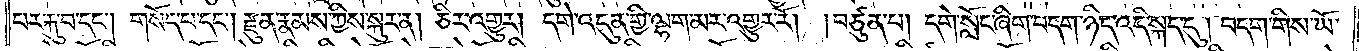པར་རྐུ་བ་དང༌། གསོད་པ་དང༌། རྫུན་རྣམས་ཀྱིས་སྐུར་ན། ཅིར་འགྱུར། དགེ་འདུན་གྱི་ལྷག་མར་འགྱུར་རོ། །བཙུན་པ། དགེ་སློང་ཞིག་བདག་ཉིད་འདི་སྐད་དུ། བདག་གིས་ཡོ་
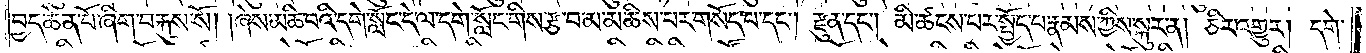བྱད་ཆེན་པོ་ཞིག་བརྐུས་སོ། །ཞེས་མཆི་བའི་དགེ་སློང་དེ་ལ་དགེ་སློང་གིས་རྩ་བ་མ་མཆིས་པར་གསོད་པ་དང༌། རྫུན་དང༌། མི་ཚངས་པར་སྤྱོད་པ་རྣམས་ཀྱིས་སྐུར་ན། ཅིར་འགྱུར། དགེ་
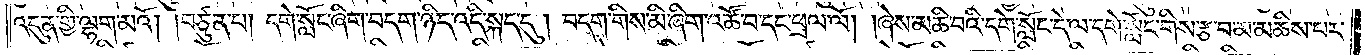འདུན་གྱི་ལྷག་མའོ། །བཙུན་པ། དགེ་སློང་ཞིག་བདག་ཉིད་འདི་སྐད་དུ། བདག་གིས་མི་ཞིག་འཚོ་བ་དང་ཕྲལ་ལོ། །ཞེས་མཆི་བའི་དགེ་སློང་དེ་ལ་དགེ་སློང་གིས་རྩ་བ་མ་མཆིས་པར་
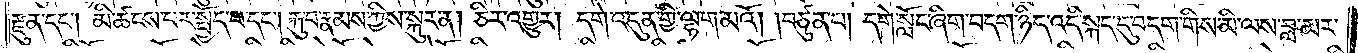རྫུན་དང༌། མི་ཚངས་པར་སྤྱོད་པ་དང༌། རྐུ་བ་རྣམས་ཀྱིས་སྐུར་ན། ཅིར་འགྱུར། དགེ་འདུན་གྱི་ལྷག་མའོ། །བཙུན་པ། དགེ་སློང་ཞིག་བདག་ཉིད་འདི་སྐད་དུ་བདག་གིས་མི་ལས་བླ་མར་
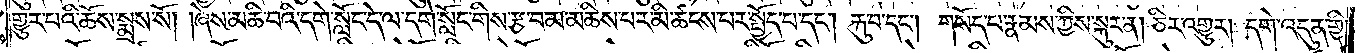གྱུར་པའི་ཆོས་སྨྲས་སོ། །ཞེས་མཆི་བའི་དགེ་སློང་དེ་ལ་དགེ་སློང་གིས་རྩ་བ་མ་མཆིས་པར་མི་ཚངས་པར་སྤྱོད་པ་དང༌། རྐུ་བ་དང༌། གསོད་པ་རྣམས་ཀྱི་སྐུར་ན། ཅིར་འགྱུར། དགེ་འདུན་གྱི་
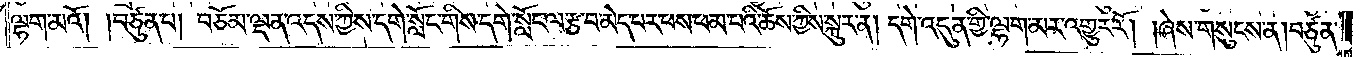ལྷག་མའོ། །བཙུན་པ། བཅོམ་ལྡན་འདས་ཀྱིས་དགེ་སློང་གིས་དགེ་སློང་ལ་རྩ་བ་མེད་པར་ཕས་ཕམ་པའི་ཆོས་ཀྱིས་སྐུར་ན། དགེ་འདུན་གྱི་ལྷག་མར་འགྱུར་རོ། །ཞེས་གསུངས་ན། བཙུན་
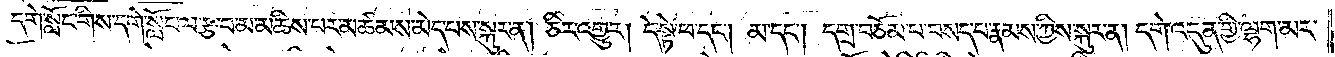པ༑ དགེ་སློང་གིས་དགེ་སློང་ལ་རྩ་བ་མ་མཆིས་པར་མཚམས་མེད་པས་སྐུར་ན། ཅིར་འགྱུར། དེ་སྟེ་ཕ་དང༌། མ་དང༌། དགྲ་བཅོམ་པ་བསད་པ་རྣམས་ཀྱིས་སྐུར་ན། དགེ་འདུན་གྱི་ལྷག་མར་
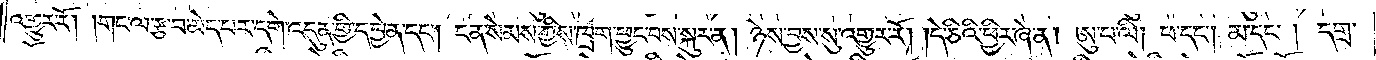འགྱུར་རོ། །གང་ལ་རྩ་བ་མེད་པར་དགེ་འདུན་གྱི་དབྱེན་དང༌། ངན་སེམས་ཀྱིས་ཁྲག་ཕྱུང་བས་སྐུར་ན། ཉེས་བྱས་སུ་འགྱུར་རོ། །དེ་ཅིའི་ཕྱིར་ཞེ་ན། ཨུ་པ་ལི། ཕ་དང༌། མ་དང༌། དགྲ་
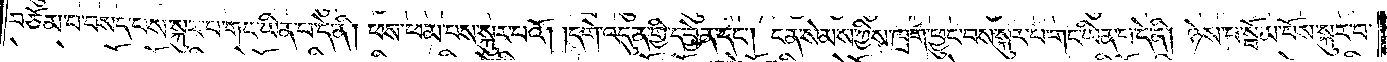བཅོམ་པ་བསད་པས་སྐུར་པ་གང་ཡིན་པ་དེ་ནི། ཕས་ཕམ་པས་སྐུར་བའོ། །དགེ་འདུན་གྱི་དབྱེན་དང༌། ངན་སེམས་ཀྱིས་ཁྲག་ཕྱུང་བས་སྐུར་པ་གང་ཡིན་པ་དེ་ནི། ཉེས་པ་སྦོམ་པོས་སྐུར་བ་
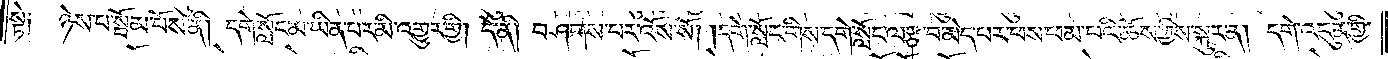སྟེ། ཉེས་པ་སྦོམ་པོས་ནི། དགེ་སློང་མ་ཡིན་པར་མི་འགྱུར་གྱི། དེ་ནི། བཤགས་པར་འོས་སོ། །དགེ་སློང་གིས་དགེ་སློང་ལ་རྩ་བ་མེད་པར་ཕས་ཕམ་པའི་ཆོས་ཀྱིས་སྐུར་ན། དགེ་འདུན་གྱི་
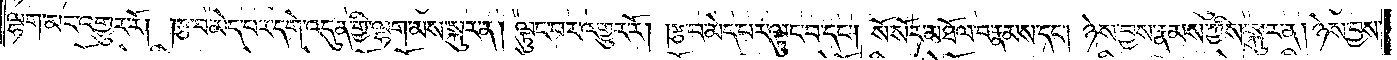ལྷག་མར་འགྱུར་རོ། །རྩ་བ་མེད་པར་དགེ་འདུན་གྱི་ལྷག་མས་སྐུར་ན། ལྟུང་བར་འགྱུར་རོ། །རྩ་བ་མེད་པར་ལྟུང་བ་དང༌། སོ་སོར་མཐོལ་བ་རྣམས་དང༌། ཉེས་བྱས་རྣམས་ཀྱིས་སྐུར་ན། ཉེས་བྱས་
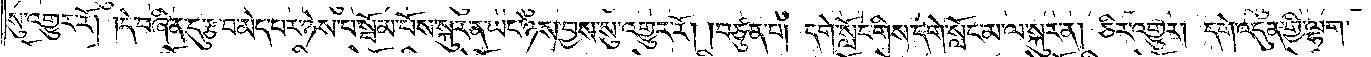སུ་འགྱུར་རོ། །དེ་བཞིན་དུ་རྩ་བ་མེད་པར་ཉེས་པ་སྦོམ་པོས་སྐུར་ན་ཡང་ཉེས་བྱས་སུ་འགྱུར་རོ། །བཙུན་པ། དགེ་སློང་གིས་དགེ་སློང་མ་ལ་སྐུར་ན། ཅིར་འགྱུར། དགེ་འདུན་གྱི་ལྷག་
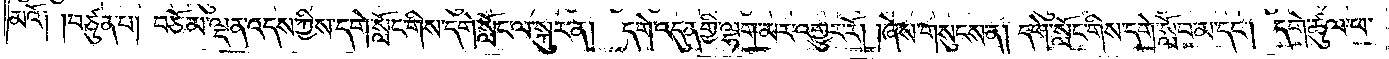མའོ༑ ༑བཙུན་པ། བཅོམ་ལྡན་འདས་ཀྱིས་དགེ་སློང་གིས་དགེ་སློང་ལ་སྐུར་ན། དགེ་འདུན་གྱི་ལྷག་མར་འགྱུར་རོ། །ཞེས་གསུངས་ན། དགེ་སློང་གིས་དགེ་སློབ་མ་དང༌། དགེ་ཚུལ་ཕ་
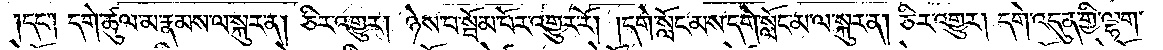།དང༌། དགེ་ཚུལ་མ་རྣམས་ལ་སྐུར་ན། ཅིར་འགྱུར། ཉེས་པ་སྦོམ་པོར་འགྱུར་རོ། །དགེ་སློང་མས་དགེ་སློང་མ་ལ་སྐུར་ན། ཅིར་འགྱུར། དགེ་འདུན་གྱི་ལྷག་
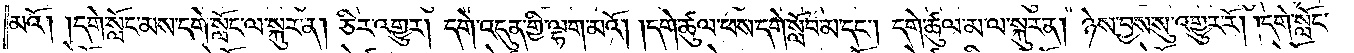མའོ། །དགེ་སློང་མས་དགེ་སློང་ལ་སྐུར་ན། ཅིར་འགྱུར། དགེ་འདུན་གྱི་ལྷག་མའོ། །དགེ་ཚུལ་ཕས་དགེ་སློབ་མ་དང༌། དགེ་ཚུལ་མ་ལ་སྐུར་ན། ཉེས་བྱས་སུ་འགྱུར་རོ། །དགེ་སློང་
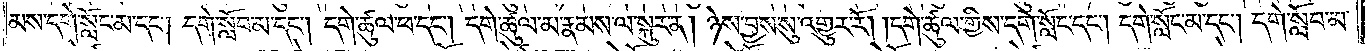མས་དགེ་སློང་མ་དང༌། དགེ་སློབ་མ་དང༌། དགེ་ཚུལ་ཕ་དང༌། དགེ་ཚུལ་མ་རྣམས་ལ་སྐུར་ན། ཉེས་བྱས་སུ་འགྱུར་རོ། །དགེ་ཚུལ་གྱིས་དགེ་སློང་དང༌། དགེ་སློང་མ་དང༌། དགེ་སློབ་མ་
